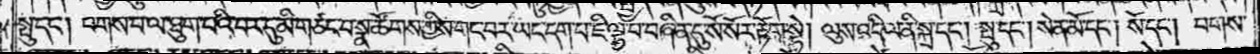སྤུ་དང༌། པགས་པ་ལ་ཐུག་པའི་བར་དུ་མི་གཙང་བ་སྣ་ཚོགས་ཀྱིས་གང་བར་ཡང་དག་པ་ཇི་ལྟ་བ་བཞིན་དུ་སོ་སོར་རྟོག་སྟེ། ལུས་འདི་ལ་ནི་སྐྲ་དང༌། སྤུ་དང༌། སེན་མོ་དང༌། སོ་དང༌། པགས་
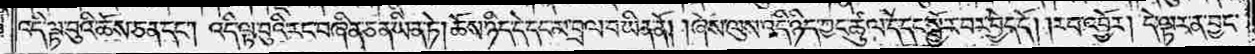འདི་ལྟ་བུའི་ཆོས་ཅན་དང༌། འདི་ལྟ་བུའི་རང་བཞིན་ཅན་ཡིན་ཏེ། ཆོས་ཉིད་དེ་དང་མ་བྲལ་བ་ཡིན་ནོ། །ཞེས་ལུས་འདི་ཉིད་ཀྱང་ཚུལ་དེ་དང་སྦྱོར་བར་བྱེད་དོ། །རབ་འབྱོར། དེ་ལྟར་ན་བྱང་
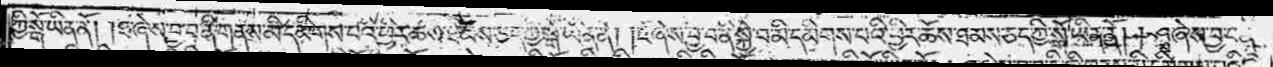ཀྱི་སྒོ་ཡིན་ནོ། །ཐ་ཞེས་བྱ་བ་ནི་གནས་མི་དམིགས་པའི་ཕྱིར་ཆོས་ཐམས་ཅད་ཀྱི་སྒོ་ཡིན་ནོ། །ཛ་ཞེས་བྱ་བ་ནི་སྐྱེ་བ་མི་དམིགས་པའི་ཕྱིར་ཆོས་ཐམས་ཅད་ཀྱི་སྒོ་ཡིན་ནོ། །ཤྭ་ཞེས་བྱ་བ་ནི་
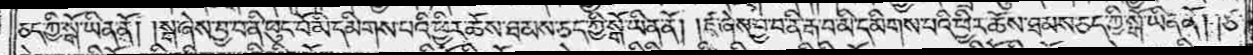ཅད་ཀྱི་སྒོ་ཡིན་ནོ། །སྒ་ཞེས་བྱ་བ་ནི་ཕུང་པོ་མི་དམིགས་པའི་ཕྱིར་ཆོས་ཐམས་ཅད་ཀྱི་སྒོ་ཡིན་ནོ། །ཛ་ཞེས་བྱ་བ་ནི་རྒ་བ་མི་དམིགས་པའི་ཕྱིར་ཆོས་ཐམས་ཅད་ཀྱི་སྒོ་ཡིན་ནོ། །ཙ་
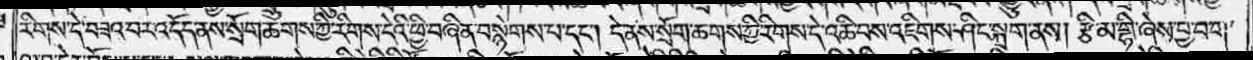རིགས་དེ་བཟའ་བར་འདོད་ནས་སྲོག་ཆགས་ཀྱི་རིགས་དེའི་ཕྱི་བཞིན་བསྙེགས་པ་དང༌། དེ་ནས་སྲོག་ཆགས་ཀྱི་རིགས་དེ་འཆི་བས་འཇིགས་ཤིང་སྐྲག་ནས། རྩི་མ་གྷི་ཞེས་བྱ་བ་ག་
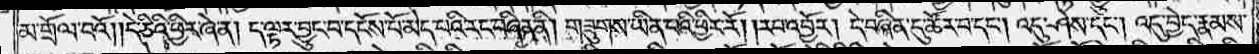མ་གྲོལ་བའོ། །དེ་ཅིའི་ཕྱིར་ཞེ་ན། ད་ལྟར་བྱུང་བ་དངོས་པོ་མེད་པའི་རང་བཞིན་ནི། གཟུགས་ཡིན་པའི་ཕྱིར་རོ། །རབ་འབྱོར། དེ་བཞིན་དུ་ཚོར་བ་དང༌། འདུ་ཤེས་དང༌། འདུ་བྱེད་རྣམས་
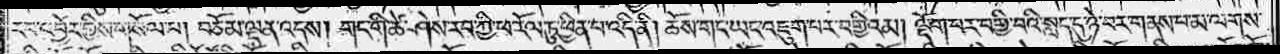རབ་འབྱོར་གྱིས་གསོལ་པ། བཅོམ་ལྡན་འདས། གང་གི་ཚེ་ཤེས་རབ་ཀྱི་ཕ་རོལ་ཏུ་ཕྱིན་པ་འདི་ནི། ཆོས་གང་ཡང་འཇུག་པར་བགྱིའམ། ལྡོག་པར་བགྱི་བའི་སླད་དུ་ཉེ་བར་གནས་པ་མ་ལགས་
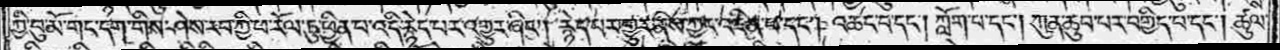ཀྱི་བུ་མོ་གང་དག་གིས་ཤེས་རབ་ཀྱི་ཕ་རོལ་ཏུ་ཕྱིན་པ་འདི་རྙེད་པར་འགྱུར་ཞིང༌། རྙེད་པར་གྱུར་ནས་ཀྱང་འཛིན་པ་དང༌། འཆང་བ་དང༌། ཀློག་པ་དང༌། ཀུན་ཆུབ་པར་བགྱིད་པ་དང༌། ཚུལ་
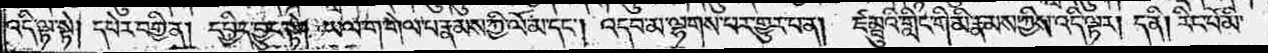འདི་ལྟ་སྟེ། དཔེར་བགྱི་ན། དཔྱིད་བྱུང་སྟེ། ཡལ་ག་གེལ་པ་རྣམས་ཀྱི་ལོ་མ་དང༌། འདབ་མ་ལྷགས་པར་གྱུར་པ་ན། ཛམྦུའི་གླིང་གི་མི་རྣམས་ཀྱིས་འདི་ལྟར། ད་ནི། རིང་པོ་མི་
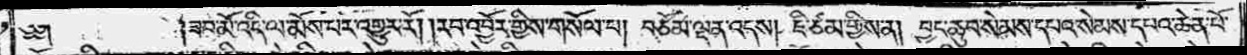༄༅༎ཟབ་མོ་འདི་ལ་མོས་པར་འགྱུར་རོ། །རབ་འབྱོར་གྱིས་གསོལ་པ། བཅོམ་ལྡན་འདས། ཇི་ཙམ་གྱིས་ན། བྱང་ཆུབ་སེམས་དཔའ་སེམས་དཔའ་ཆེན་པོ་
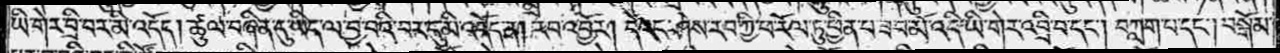ཡི་གེར་བྲི་བར་མི་འདོད། ཚུལ་བཞིན་དུ་ཡིད་ལ་བྱ་བའི་བར་དུ་མི་འདོད་ན། རབ་འབྱོར། དེའང་ཤེས་རབ་ཀྱི་ཕ་རོལ་ཏུ་ཕྱིན་པ་ཟབ་མོ་འདི་ཡི་གེར་འབྲི་བ་དང༌། བཀླག་པ་དང༌། བསྒོམ་
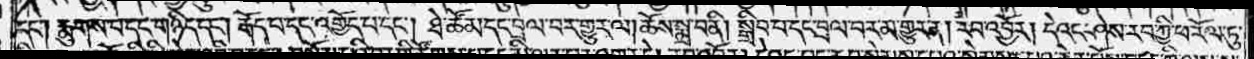དང༌། རྨུགས་པ་དང་གཉིད་དང༌། རྒོད་པ་དང་འགྱོད་པ་དང༌། ཐེ་ཚོམ་དང་བྲལ་བར་གྱུར་ལ། ཆོས་སྨྲ་བ་ནི། སྒྲིབ་པ་དང་བྲལ་བར་མ་གྱུར་ན། རབ་འབྱོར། དེའང་ཤེས་རབ་ཀྱི་ཕ་རོལ་ཏུ་
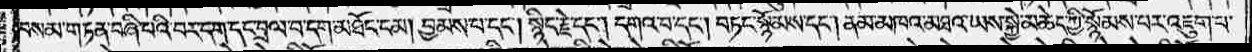བསམ་གཏན་བཞི་པའི་བར་དག་དང་བྲལ་བ་དག་མཐོང་ངམ། བྱམས་པ་དང༌། སྙིང་རྗེ་དང༌། དགའ་བ་དང༌། བཏང་སྙོམས་དང༌། ནམ་མཁའ་མཐའ་ཡས་སྐྱེ་མཆེད་ཀྱི་སྙོམས་པར་འཇུག་པ་
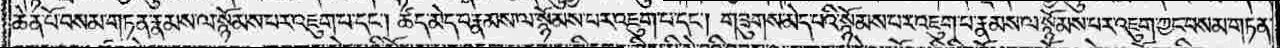ཆེན་པོ་བསམ་གཏན་རྣམས་ལ་སྙོམས་པར་འཇུག་པ་དང༌། ཚད་མེད་པ་རྣམས་ལ་སྙོམས་པར་འཇུག་པ་དང༌། གཟུགས་མེད་པའི་སྙོམས་པར་འཇུག་པ་རྣམས་ལ་སྙོམས་པར་འཇུག་ཀྱང་བསམ་གཏན་
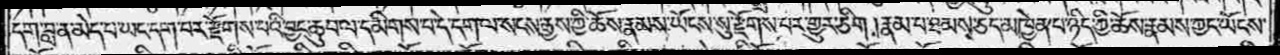དག་བླ་ན་མེད་པ་ཡང་དག་པར་རྫོགས་པའི་བྱང་ཆུབ་ལ་དམིགས་པ་དེ་དག་ལ་སངས་རྒྱས་ཀྱི་ཆོས་རྣམས་ཡོངས་སུ་རྫོགས་པར་གྱུར་ཅིག །རྣམ་པ་ཐམས་ཅད་མཁྱེན་པ་ཉིད་ཀྱི་ཆོས་རྣམས་ཀྱང་ཡོངས་
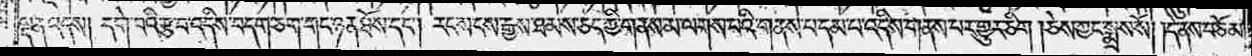ལྡན་འདས། དགེ་བའི་རྩ་བ་འདིས་བདག་ཅག་གང་ཉན་ཐོས་དང༌། རང་སངས་རྒྱས་ཐམས་ཅད་ཀྱི་གནས་མ་ལགས་པའི་གནས་པ་དམ་པ་འདིས་གནས་པར་གྱུར་ཅིག །ཅེས་ཀྱང་སྨྲས་སོ། །དེ་ནས་བཅོམ་
